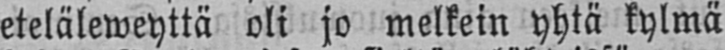eteläleweyttä oli jo melkein yhtä kylmä
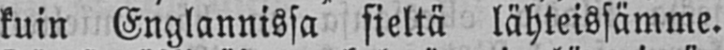kuin Englannissa sieltä lähteissämme.
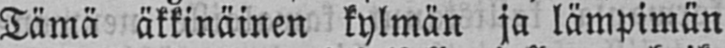Tämä äkkinäinen kylmän ja lämpimän
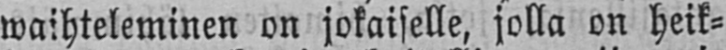waihteleminen on jokaiselle, jolla on heik-
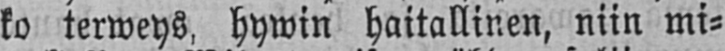ko terweys, hywin haitallinen, niin mi-
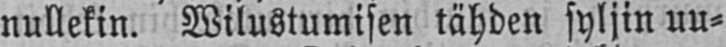nullekin. Wilustumisen tähden syljin uu-
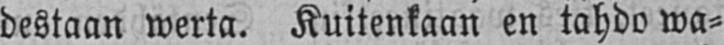destaan werta. Kuitenkaan en tahdo wa-
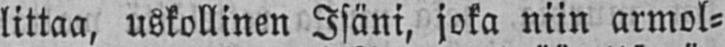littaa, uskollinen Isäni, joka niin armol-
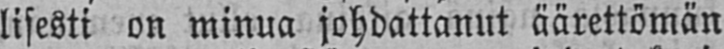lisesti on minua johdattanut äärettömän
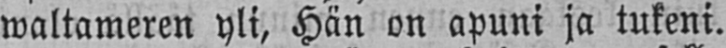waltameren yli, Hän on apuni ja tukeni.
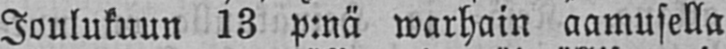Joulukuun 13 p:nä warhain aamusella
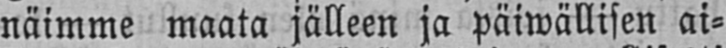näimme maata jälleen ja päiwällisen ai-
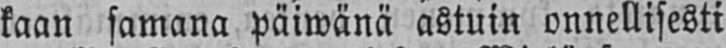kaan samana päiwänä astuin onnellisesti
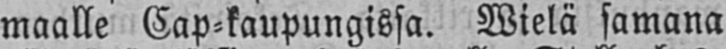maalle Cap-kaupungissa. Wielä samana
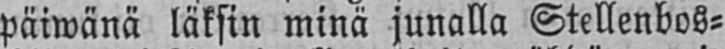päiwänä läksin minä junalla Stellenbos-
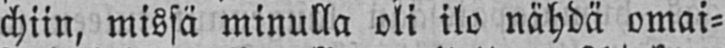chiin, missä minulla oli ilo nähdä omai-
